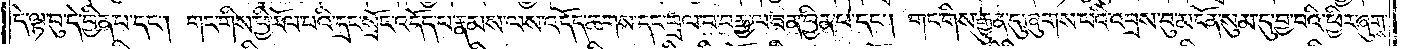དེ་ལྟ་བུ་དེ་བྱིན་པ་དང༌། གང་གིས་ཕྱི་རོལ་པའི་དྲང་སྲོང་འདོད་པ་རྣམས་ལས་འདོད་ཆགས་དང་བྲལ་བ་བརྒྱ་ལ་ཟན་བྱིན་པ་དང༌། གང་གིས་རྒྱུན་དུ་ཞུགས་པའི་འབྲས་བུ་མངོན་སུམ་དུ་བྱ་བའི་ཕྱིར་ཞུགས་
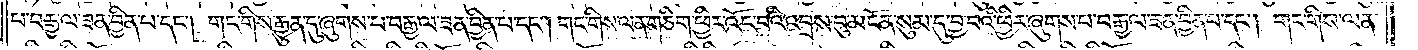པ་བརྒྱ་ལ་ཟན་བྱིན་པ་དང༌། གང་གིས་རྒྱུན་དུ་ཞུགས་པ་བརྒྱ་ལ་ཟན་བྱིན་པ་དང༌། གང་གིས་ལན་གཅིག་ཕྱིར་འོང་བའི་འབྲས་བུ་མངོན་སུམ་དུ་བྱ་བའི་ཕྱིར་ཞུགས་པ་བརྒྱ་ལ་ཟན་བྱིན་པ་དང༌། གང་གིས་ལན་
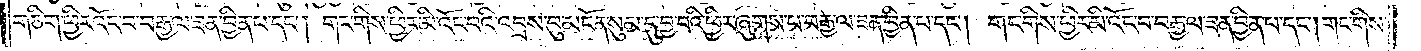གཅིག་ཕྱིར་འོང་བ་བརྒྱ་ལ་ཟན་བྱིན་པ་དང༌། གང་གིས་ཕྱིར་མི་འོང་བའི་འབྲས་བུ་མངོན་སུམ་དུ་བྱ་བའི་ཕྱིར་ཞུགས་པ་བརྒྱ་ལ་ཟན་བྱིན་པ་དང༌། གང་གིས་ཕྱིར་མི་འོང་བ་བརྒྱ་ལ་ཟན་བྱིན་པ་དང༌། གང་གིས་
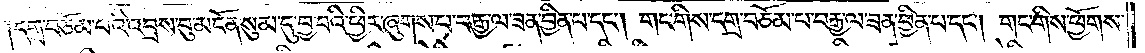དགྲ་བཅོམ་པའི་འབྲས་བུ་མངོན་སུམ་དུ་བྱ་བའི་ཕྱིར་ཞུགས་པ་བརྒྱ་ལ་ཟན་བྱིན་པ་དང༌། གང་གིས་དགྲ་བཅོམ་པ་བརྒྱ་ལ་ཟན་བྱིན་པ་དང༌། གང་གིས་ཕྱོགས་
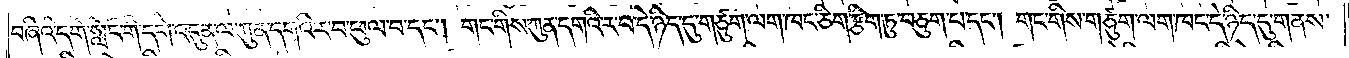བཞིའི་དགེ་སློང་གི་དགེ་འདུན་ལ་ཀུན་དགའི་ར་བ་ཕུལ་བ་དང༌། གང་གིས་ཀུན་དགའི་ར་བ་དེ་ཉིད་དུ་གཙུག་ལག་ཁང་ཅིག་རྩིག་ཏུ་བཅུག་པ་དང༌། གང་གིས་གཙུག་ལག་ཁང་དེ་ཉིད་དུ་གནས་
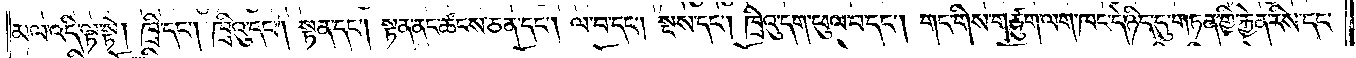མལ་འདི་ལྟ་སྟེ། ཁྲི་དང༌། ཁྲིའུ་དང༌། སྟན་དང༌། སྟན་ནང་ཚངས་ཅན་དང༌། ལ་བ་དང༌། སྔས་དང༌། ཁྲིའུ་དག་ཕུལ་བ་དང༌། གང་གིས་གཙུག་ལག་ཁང་དེ་ཉིད་དུ་གཏན་གྱི་རྐྱེན་རིས་དང་
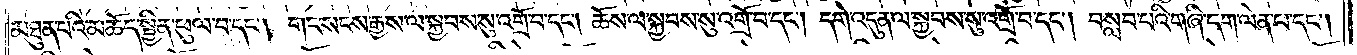མཐུན་པའི་མཆོད་སྦྱིན་ཕུལ་བ་དང༌། གང་སངས་རྒྱས་ལ་སྐྱབས་སུ་འགྲོ་བ་དང༌། ཆོས་ལ་སྐྱབས་སུ་འགྲོ་བ་དང༌། དགེ་འདུན་ལ་སྐྱབས་སུ་འགྲོ་བ་དང༌། བསླབ་པའི་གཞི་དག་ལེན་པ་དང༌།
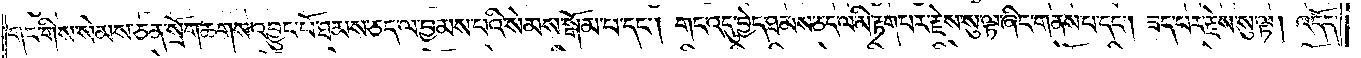གང་གིས་སེམས་ཅན་སྲོག་ཆགས་འབྱུང་པོ་ཐམས་ཅད་ལ་བྱམས་པའི་སེམས་སྒོམ་པ་དང༌། གང་འདུ་བྱེད་ཐམས་ཅད་ལ་མི་རྟག་པར་རྗེས་སུ་ལྟ་ཞིང་གནས་པ་དང༌། ཟད་པར་རྗེས་སུ་ལྟ། འདོད་
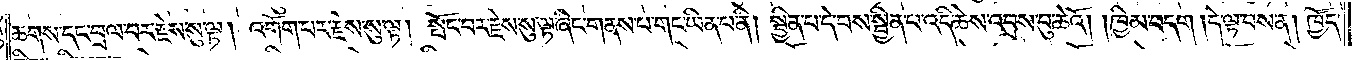ཆགས་དང་བྲལ་བར་རྗེས་སུ་ལྟ། འགོག་པར་རྗེས་སུ་ལྟ། སྤོང་བར་རྗེས་སུ་ལྟ་ཞིང་གནས་པ་གང་ཡིན་པ་ནི། སྦྱིན་པ་དེ་བས་སྦྱིན་པ་འདི་ཆེས་འབྲས་བུ་ཆེའོ། །ཁྱིམ་བདག །དེ་ལྟ་བས་ན། ཁྱོད་
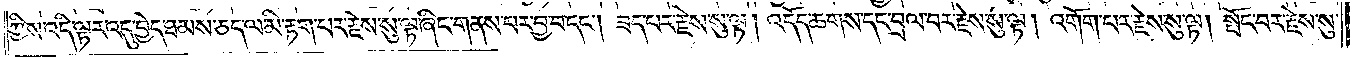ཀྱིས་འདི་ལྟར་འདུ་བྱེད་ཐམས་ཅད་ལ་མི་རྟག་པ་རྗེས་སུ་ལྟ་ཞིང་གནས་པར་བྱ་བ་དང༌། ཟད་པར་རྗེས་སུ་ལྟ། འདོད་ཆགས་དང་བྲལ་བར་རྗེས་སུ་ལྟ། འགོག་པར་རྗེས་སུ་ལྟ། སྤོང་བར་རྗེས་སུ་
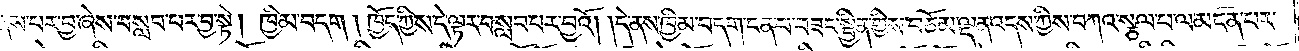ནས་པར་བྱ་ཞེས་བསླབ་པར་བྱ་སྟེ། ཁྱིམ་བདག །ཁྱོད་ཀྱིས་དེ་ལྟར་བསླབ་པར་བྱའོ། །དེ་ནས་ཁྱིམ་བདག་ངན་པ་བཟང་སྦྱིན་གྱིས་བཅོམ་ལྡན་འདས་ཀྱིས་བཀའ་སྩལ་པ་ལ་མངོན་པར་
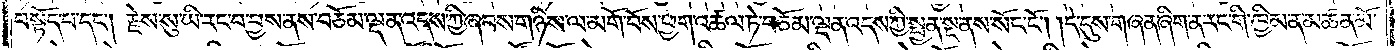བསྟོད་པ་དང༌། རྗེས་སུ་ཡི་རང་བ་བྱས་ནས་བཅོམ་ལྡན་འདས་ཀྱི་ཞབས་གཉིས་ལ་མགོ་བོས་ཕྱག་འཚལ་ཏེ་བཅོམ་ལྡན་འདས་ཀྱི་སྤྱན་སྔ་ནས་སོང་ངོ༌། །དེ་དུས་གཞན་ཞིག་ན་རང་གི་ཁྱིམ་ན་མཚན་མོ་
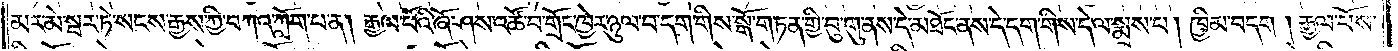མར་མེ་སྦར་ཏེ་སངས་རྒྱས་ཀྱི་བཀའ་ཀློག་པ་ན། རྒྱལ་པོའི་ཞོ་ཤས་འཚོ་བ་གྲོང་ཁྱེར་ཉུལ་བ་དག་གིས་སྒོ་གཏན་གྱི་བུ་གུ་ནས་དེ་མཐོང་ནས་དེ་དག་གིས་དེ་ལ་སྨྲས་པ། ཁྱིམ་བདག །རྒྱལ་པོས་
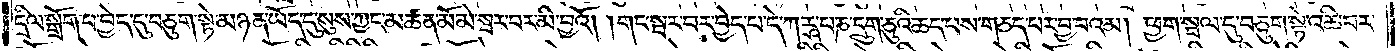དྲིལ་སྒྲོག་པ་བྱེད་དུ་བཅུག་སྟེ་མཉན་ཡོད་དུ་སུས་ཀྱང་མཚན་མོ་མེ་སྦར་བར་མི་བྱའོ། །གང་སྦར་བར་བྱེད་པ་དེ་ཀཪྴ་པ་ཎ་དྲུག་ཅུའི་ཆད་པས་གཅད་པར་བྱ་བའམ། ཕྱག་སྦལ་དུ་བཅུག་སྟེ་འཆི་བར་
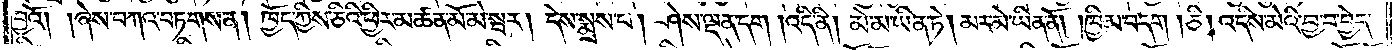བྱའོ། །ཞེས་བཀའ་བཏགས་ན། ཁྱོད་ཀྱིས་ཅིའི་ཕྱིར་མཚན་མོ་མེ་སྦར། དེས་སྨྲས་པ། ཤེས་ལྡན་དག །འདི་ནི། མེ་མ་ཡིན་ཏེ། མར་མེ་ཡིན་ནོ། །ཁྱིམ་བདག །ཅི། འདིས་མེའི་བྱ་བ་བྱེད་
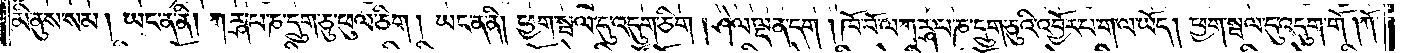མི་ནུས་སམ། ཡང་ན་ནི། ཀཪྴ་པ་ཎ་དྲུག་ཅུ་ཕུལ་ཅིག །ཡང་ན་ནི། ཕྱག་སྦལ་དུ་འདུག་ཅིག །ཤེལ་ལྡན་དག །ཁོ་བོ་ལ་ཀཪྴ་པ་ཎ་དྲུག་ཅུའི་འབྱོར་པ་ག་ལ་ཡོད། ཕྱག་སྦལ་དུ་འདུག་གོ །ཀོ་
